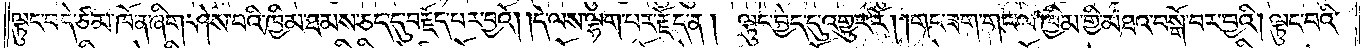ལྟུང་བདེ་ཙམ་ཁོ་ན་ཞིག་ཤེས་པའི་ཁྱིམ་ཐམས་ཅད་དུ་བརྗོད་པར་བྱའོ། །དེ་ལས་ལྷག་པར་རྗོད་ན། ལྟུང་བྱེད་དུ་འགྱུར་རོ། །གང་ཟག་གང་ལ་ཁྱིམ་གྱི་མཐའ་བསྒོ་བར་བྱའི། །ལྟུང་བའི་
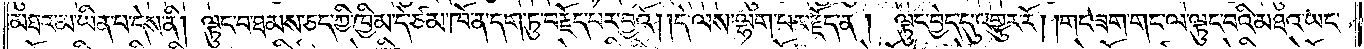མཐའ་མ་ཡིན་པ་དེས་ནི། ལྟུང་བ་ཐམས་ཅད་ཀྱི་ཁྱིམ་དེ་ཙམ་ཁོ་ན་དག་ཏུ་བརྗོད་པར་བྱའོ། །དེ་ལས་ལྷག་པར་རྗོད་ན། ལྟུང་བྱེད་དུ་འགྱུར་རོ། །གང་ཟག་གང་ལ་ལྟུང་བའི་མཐའ་ཡང་
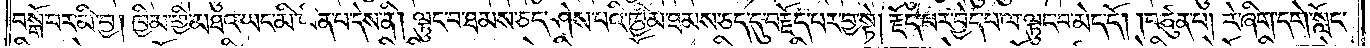བསྒོ་བར་མི་བྱ། ཁྱིམ་གྱི་མཐའ་ཡང་མི་ཡིན་པ་དེས་ནི། ལྟུང་བ་ཐམས་ཅད་ཤེས་པའི་ཁྱིམ་ཐམས་ཅད་དུ་བརྗོད་པར་བྱ་སྟེ། རྗོད་པར་བྱེད་པ་ལ་ལྟུང་བ་མེད་དོ། །བཙུན་པ། རེ་ཞིག་དགེ་སློང་
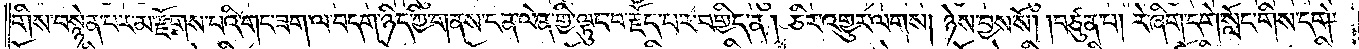གིས་བསྙེན་པར་མ་རྫོགས་པའི་གང་ཟག་ལ་བདག་ཉིད་ཀྱི་གནས་ངན་ལེན་གྱི་ལྟུང་བ་རྗོད་པར་བགྱིད་ན། ཅིར་འགྱུར་ལགས། ཉེས་བྱས་སོ། །བཙུན་པ། རེ་ཞིག་དགེ་སློང་གིས་དགེ་
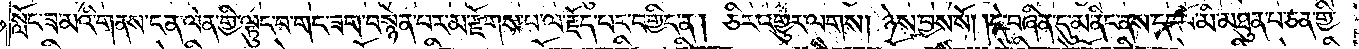སློང་ཟ་མའི་གནས་ངན་ལེན་གྱི་ལྟུང་བ་གང་ཟག་བསྙེན་པར་མ་རྫོགས་པ་ལ་རྗོད་པར་བགྱིད་ན། ཅིར་འགྱུར་ལགས། ཉེས་བྱས་སོ། །དེ་བཞིན་དུ་མ་ནིང་ནས་དང་པོ་མི་མཐུན་པ་ཅན་གྱི་
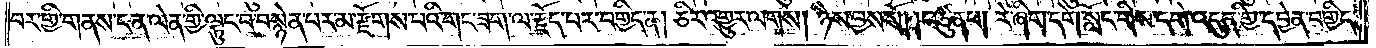བར་གྱི་གནས་ངན་ལེན་གྱི་ལྟུང་བ་བསྙེན་པར་མ་རྫོགས་པའི་གང་ཟག་ལ་རྗོད་པར་བགྱིད་ན། ཅིར་འགྱུར་ལགས། ཉེས་བྱས་སོ། །བཙུན་པ། རེ་ཞིག་དགེ་སློང་གིས་དགེ་འདུན་གྱི་དབྱེན་བགྱིད་
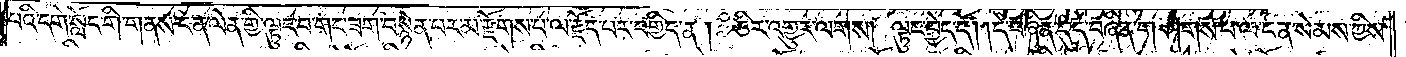པའི་དགེ་སློང་གི་གནས་ངན་ལེན་གྱི་ལྟུང་བ་གང་ཟག་བསྙེན་པར་མ་རྫོགས་པ་ལ་རྗོད་པར་བགྱིད་ན། ཅིར་འགྱུར་ལགས། ལྟུང་བྱེད་དོ། །དེ་བཞིན་དུ་དེ་བཞིན་གཤེགས་པ་ལ་ངན་སེམས་ཀྱིས་
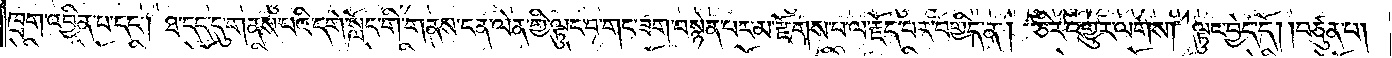ཁྲག་འབྱིན་པ་དང༌། ཐ་དད་དུ་གནས་པའི་དགེ་སློང་གི་གནས་ངན་ལེན་གྱི་ལྟུང་བ་གང་ཟག་བསྙེན་པར་མ་རྫོགས་པ་ལ་རྗོད་པར་བགྱིད་ན། ཅིར་འགྱུར་ལགས། ལྟུང་བྱེད་དོ། །བཙུན་པ།
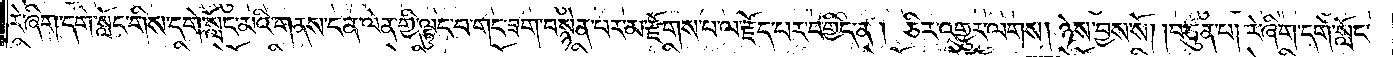རེ་ཞིག་དགེ་སློང་གིས་དགེ་སློང་མའི་གནས་ངན་ལེན་གྱི་ལྟུང་བ་གང་ཟག་བསྙེན་པ་མ་རྫོགས་པ་ལ་རྗོད་པར་བགྱིད་ན། ཅིར་འགྱུར་ལགས། ཉེས་བྱས་སོ། །བཙུན་པ། རེ་ཞིག་དགེ་སློང་
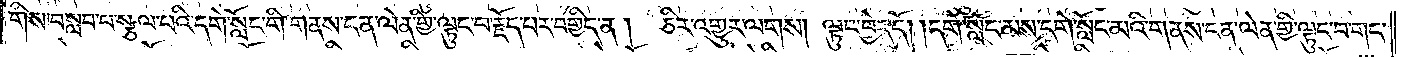གིས་བསླབ་པ་སྩལ་པའི་དགེ་སློང་གི་གནས་ངན་ལེན་གྱི་ལྟུང་བ་རྗོད་པར་བགྱིད་ན། ཅིར་འགྱུར་ལགས། ལྟུང་བྱེད་དོ། །དགེ་སློང་མས་དགེ་སློང་མའི་གནས་ངན་ལེན་གྱི་ལྟུང་བ་གང་
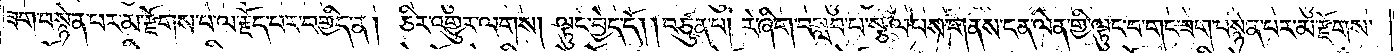ཟག་བསྙེན་པར་མ་རྫོགས་པ་ལ་རྗོད་པར་བགྱིད་ན། ཅིར་འགྱུར་ལགས། ལྟུང་བྱེད་དོ། །བཙུན་པ། རེ་ཞིག་བསླབ་པ་སྩལ་པས་གནས་ངན་ལེན་གྱི་ལྟུང་བ་གང་ཟག་བསྙེན་པར་མ་རྫོགས་
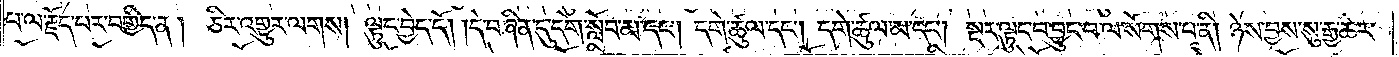པ་ལ་རྗོད་པར་བགྱིད་ན། ཅིར་འགྱུར་ལགས། ལྟུང་བྱེད་དོ། །དེ་བཞིན་དུ་དགེ་སློབ་མ་དང༌། དགེ་ཚུལ་དང༌། དགེ་ཚུལ་མ་དང༌། སྔར་ལྟུང་བ་བྱུང་བ་ལ་སོགས་པ་ནི། ཉེས་བྱས་སུ་རྒྱ་ཆེར་
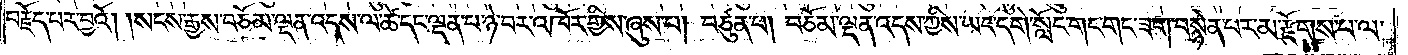བརྗོད་པར་བྱའོ། །སངས་རྒྱས་བཅོམ་ལྡན་འདས་ལ་ཚེ་དང་ལྡན་པ་ཉེ་བར་འཁོར་གྱིས་ཞུས་པ། བཙུན་པ། བཅོམ་ལྡན་འདས་ཀྱིས་ཡང་དགེ་སློང་གང་ཟག་བསྙེན་པར་མ་རྫོགས་པ་ལ་
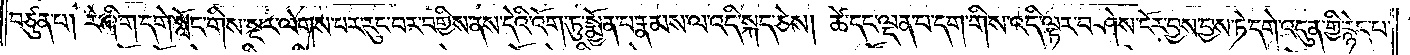བཙུན་པ། རེ་ཞིག་དགེ་སློང་གིས་སྔར་ལེགས་པར་རུང་བར་བགྱིས་ནས་དེའི་འོག་ཏུ་སྨྱོན་པ་རྣམས་ལ་འདི་སྐད་ཅེས། ཚེ་དང་ལྡན་པ་དག་གིས་འདི་ལྟར་བཤེས་ངོར་བྱས་བྱས་ཏེ་དགེ་འདུན་གྱི་རྙེད་པ་
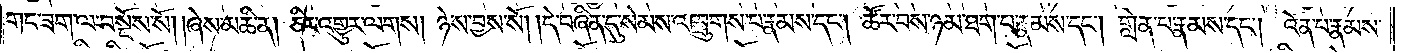གང་ཟག་ལ་བསྔོས་སོ། །ཞེས་མཆི་ན། ཅིར་འགྱུར་ལགས། ཉེས་བྱས་སོ། །དེ་བཞིན་དུ་སེམས་འཁྲུགས་པ་རྣམས་དང༌། ཚོར་བས་ཉམ་ཐག་པ་རྣམས་དང༌། གླེན་པ་རྣམས་དང༌། འོན་པ་རྣམས་
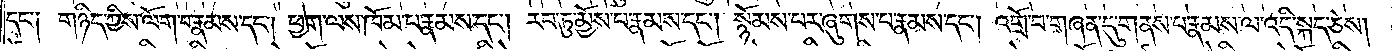དང་༑ གཉིད་ཀྱིས་ལོག་པ་རྣམས་དང༌། ཕྱག་ལས་ཁོམ་པ་རྣམས་དང༌། རབ་ཏུ་མྱོས་པ་རྣམས་དང༌། སྙོམས་པར་ཞུགས་པ་རྣམས་དང༌། འགྲོ་བ་གཞན་དུ་གནས་པ་རྣམས་ལ་འདི་སྐད་ཅེས།
